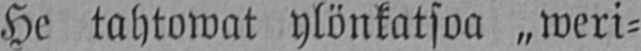He tahtowat ylönkatsoa „weri-
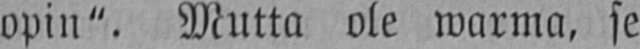opin". Mutta ole warma, se
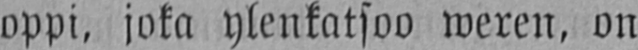oppi, joka ylenkatsoo weren, on
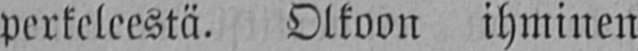perkeleestä. Olkoon ihminen
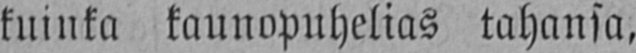kuinka kaunopuhelias tahansa,
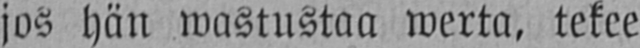jos hän wastustaa werta, tekee
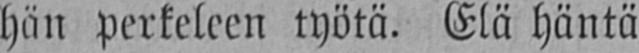hän perkeleen työtä. Elä häntä
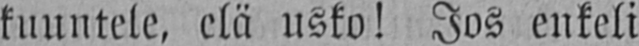kuuntele, elä usko! Jos enkeli
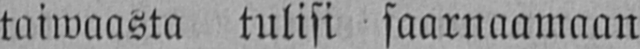taiwaasta tulisi saarnaamaan
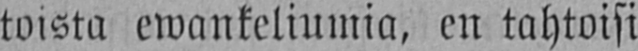toista ewankeliumia, en tahtoisi
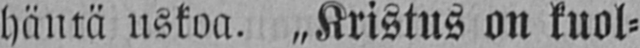häntä uskoa. „ Kristus on kuol-
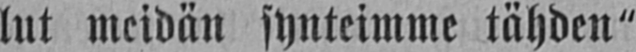lut meidän synteimme tähden"
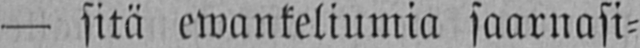— sitä ewankeliumia saarnasi-
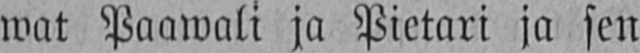wat Paawali ja Pietari ja sen
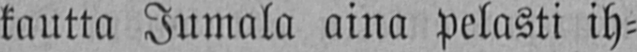kautta Jumala aina Pelasti ih-
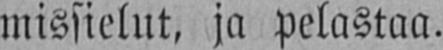missielut, ja pelastaa.
